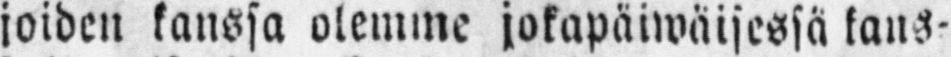joiden kanssa olemme jokapäiwäisessä kans-
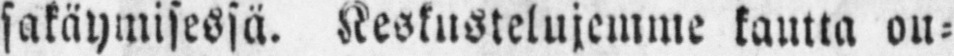sakäymisessä. Keskustelujemme kautta ou-
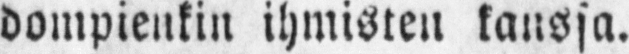dompienkin ihmisten kanssa.
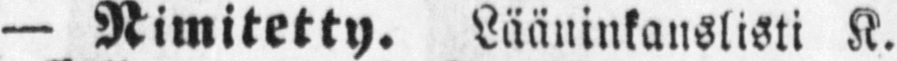— Nimitetty. Lääninkanslisti K.
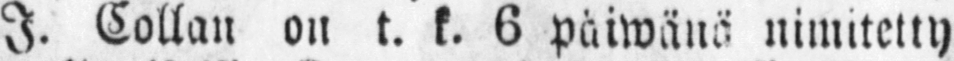I. Collan on t. k. 6 päiwänä nimitetty
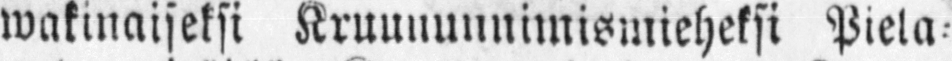wakinaiseksi Kruununnimismieheksi Piela-
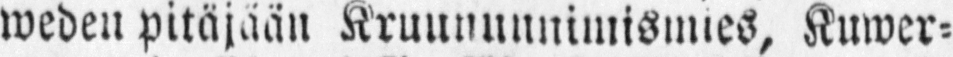weden pitäjään Kruununnimismies, Kuwer-
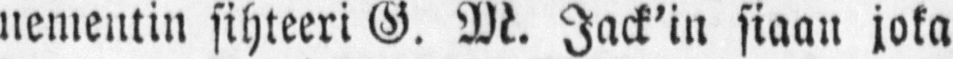nementin sihteeri G. M. Jack'in siaan joka
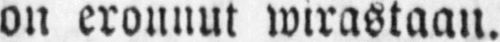on erounut wirastaan.
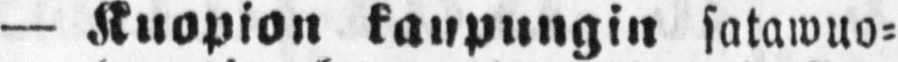— Kuopion kaupungin satawuo-
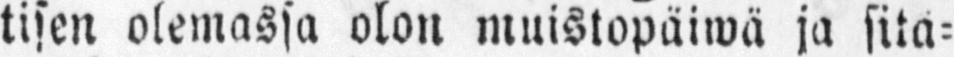tisen olemassa olon muistopäiwä ja sitä-
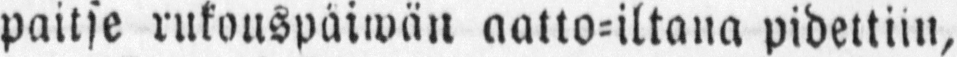paitse rukouspäiwän aatto-iltana pidettiin,
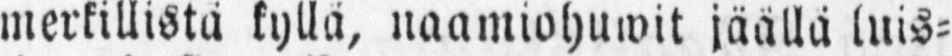merkillistä kyllä, naamiohuwit jäällä luis-
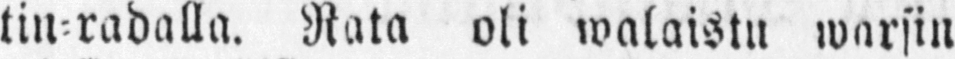tin-radalla. Rata oli walaistu warsin
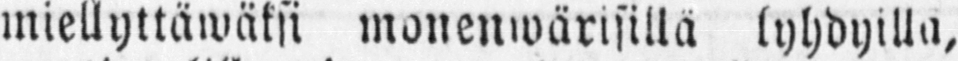miellyttäwäksi monenwärisillä lyhdyillä,
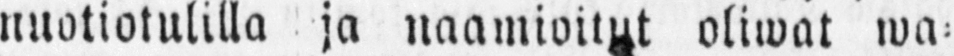nuotiotulilla ja naamioitut oliwat wa-
